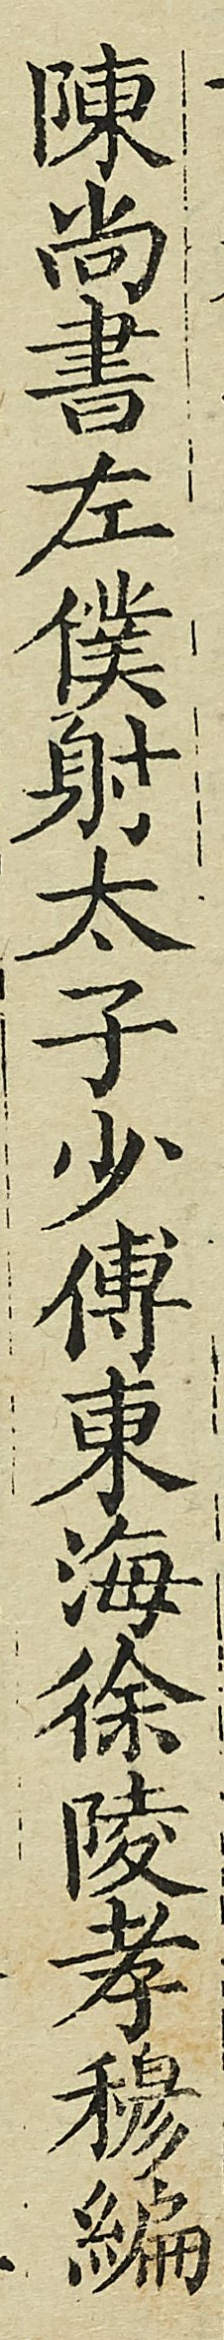陳尚書左僕射太子少傅東海徐陵孝穆編
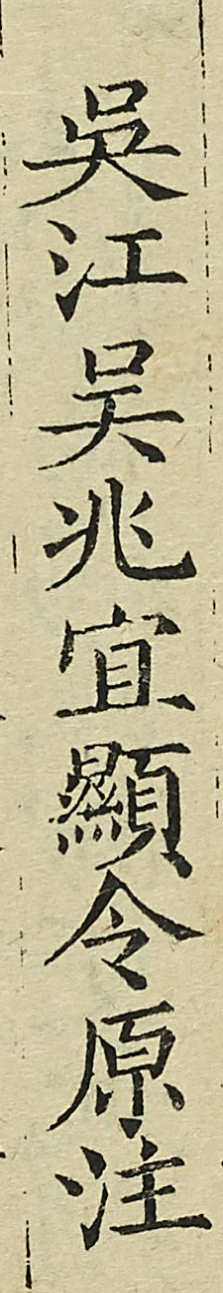吳江吳兆宜顯令原注
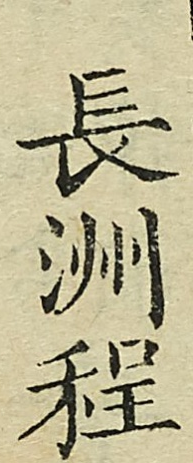長洲程
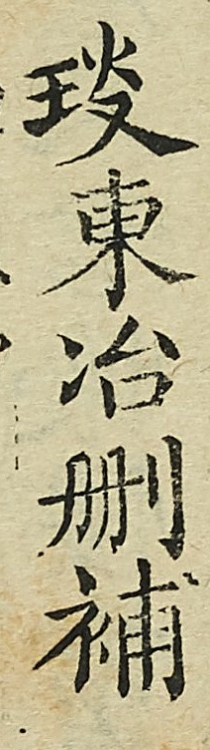琰東冶删補
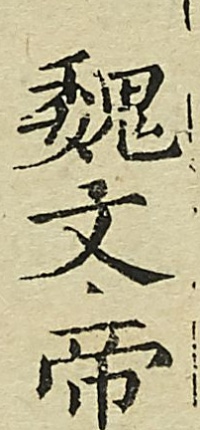魏文帝
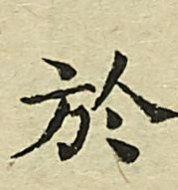於
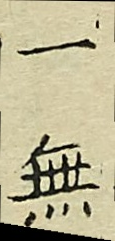一無
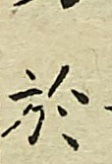於
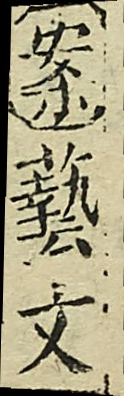（案）藝文
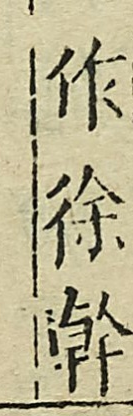作徐幹
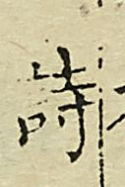詩
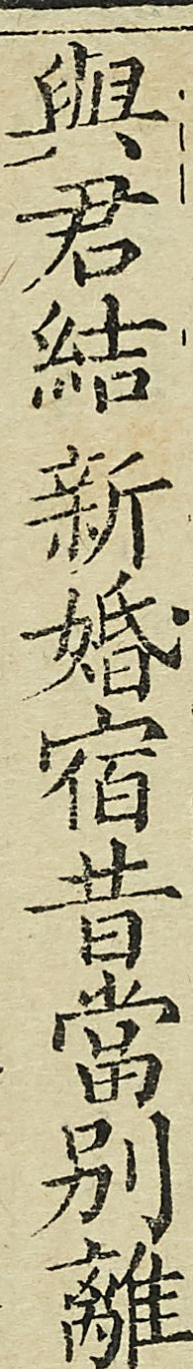與君結新婚宿昔當別離
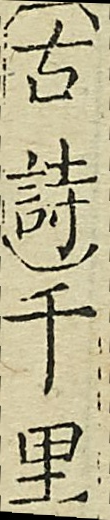（古詩）千裏
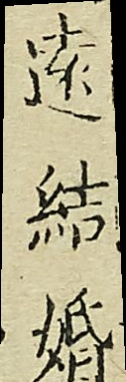遠結婚
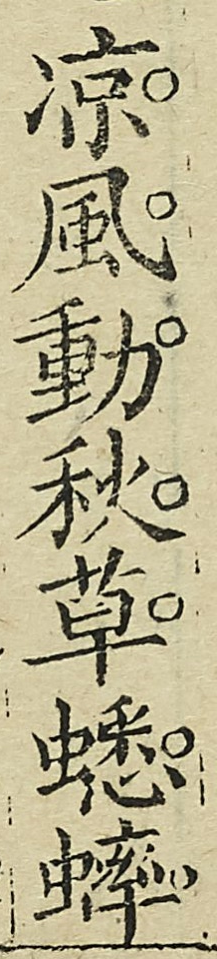凉風動秋草蟋蟀
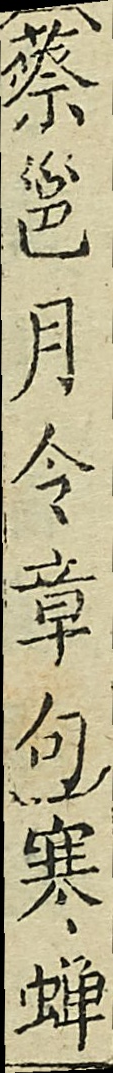（蔡邕月令章句）寒蟬
